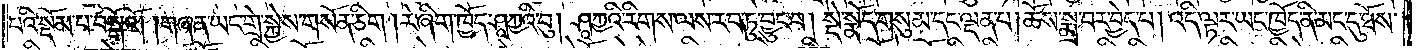པའི་སྡོམ་པ་བསྒོའོ། །གཞན་ཡང་གྲེ་སྐྱེས་གསོན་ཅིག །རེ་ཞིག་ཁྱོད་ཤཱཀྱའི་བུ། ཤཱཀྱའི་རིགས་ལས་རབ་ཏུ་བྱུང་བ། སྡེ་སྣོད་གསུམ་དང་ལྡན་པ། ཆོས་སྨྲ་བར་བྱེད་པ། འདི་ལྟར་ཡང་ཁྱོད་ནི་མང་དུ་ཐོས་
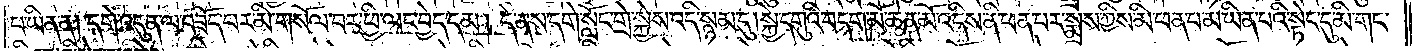པ་ཡིན་ན། དགེ་འདུན་ལ་བཟོད་པར་མི་གསོལ་བར་ཕྱི་ལང་བྱེད་དམ། དེ་ནས་དགེ་སློང་གྲེ་སྐྱེས་འདི་སྙམ་དུ། སྐྱེ་དགུའི་བདག་མོ་ཆེན་མོ་འདིས་ནི་ཕན་པར་སྨྲས་ཀྱིས་མི་ཕན་པ་མ་ཡིན་པའི་སྟེང་དུ་མི་གང་
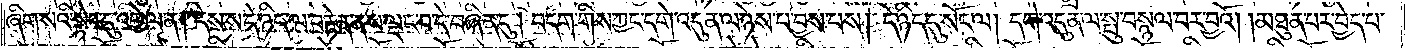ཞིག་སའི་སྟེང་དུ་འགྱེལ་ན། དེས་ས་དེ་ཉིད་ལ་བརྟེན་ནས་ལྡང་བ་དེ་བཞིན་དུ། བདག་གིས་ཀྱང་དགེ་འདུན་ལ་ཉེས་པ་བྱས་པས། དེ་ཉིད་དུ་སོང་ལ། དགེ་འདུན་ལ་སྤུ་བསྙལ་བར་བྱའོ། །མཐུན་པར་བྱེད་པ་
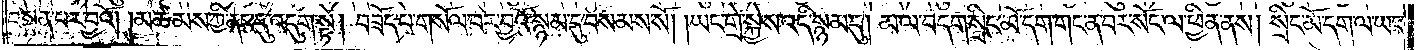བསྟན་པར་བྱའོ། །མཚམས་ཀྱི་ནང་དུ་འདུག་སྟེ། བཟོད་པ་གསོལ་བར་བྱའོ་སྙམ་དུ་བསམས་སོ། །ཡང་གྲེ་སྐྱེས་འདི་སྙམ་དུ། མ་ལ་བདག་སྲིང་མོ་དག་གང་ན་བར་སོང་ལ་ཕྱིན་ནས། སྲིང་མོ་དག་ལ་ཡང་
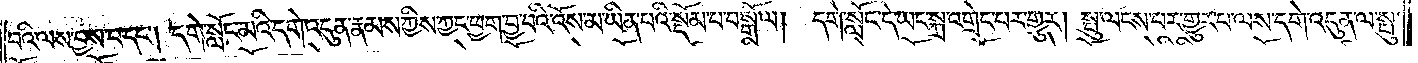བའི་ལས་བྱས་པ་དང༌། དགེ་སློང་མའི་དགེ་འདུན་རྣམས་ཀྱིས་ཀྱང་ཕྱག་བྱ་བའི་འོས་མ་ཡིན་པའི་སྡོམ་པ་བསྒོ་ལ། དགེ་སློང་དེ་ཡང་སྐྲ་འགྲེང་བར་གྱུར། སྤུ་ལངས་པར་གྱུར་པ་ལས་དགེ་འདུན་ལ་སྤུ་
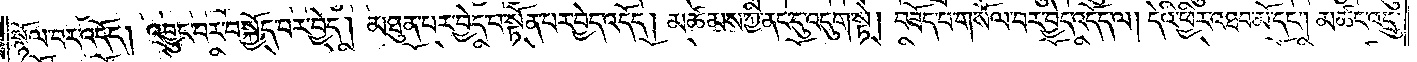སྙོལ་བར་འདོད། འབྱུང་བར་བསྐྱོད་པར་བྱེད། མཐུན་པར་བྱེད་པ་སྟོན་པར་བྱེད་འདོད། མཚམས་ཀྱི་ནང་དུ་འདུག་སྟེ། བཟོད་པ་གསོལ་བར་བྱེད་འདོད་ལ། དེའི་ཕྱིར་འཐབ་མོ་དང༌། མཚང་འདྲུ་
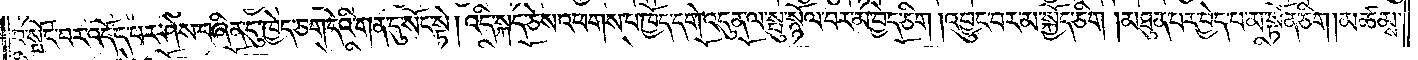བ་སྤོང་བར་འདོད་པར་ཤེས་བཞིན་དུ་ཁྱེད་ཅག་དེའི་གན་དུ་སོང་སྟེ། འདི་སྐད་ཅེས་འཕགས་པ་ཁྱོད་དགེ་འདུན་ལ་སྤུ་སྙོལ་བར་མ་བྱེད་ཅིག །འབྱུང་བར་མ་སྐྱོད་ཅིག །མཐུན་པར་བྱེད་པ་མ་སྟོན་ཅིག །མཚམས་
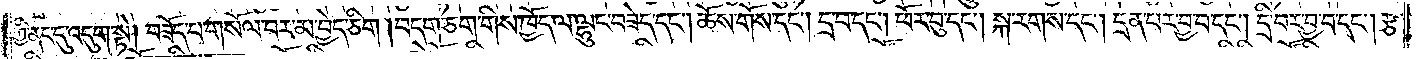ཀྱི་ནང་དུ་འདུག་སྟེ། བཟོད་པ་གསོལ་བར་མ་བྱེད་ཅིག །བདག་ཅག་གིས་ཁྱོད་ལ་ལྷུང་བཟེད་དང༌། ཆོས་གོས་དང༌། དྲ་བ་དང༌། ཕོར་བུ་དང༌། སྐ་རགས་དང༌། དྲན་པར་བྱ་བ་དང༌། དྲི་བར་བྱ་བ་དང༌། རྩ་
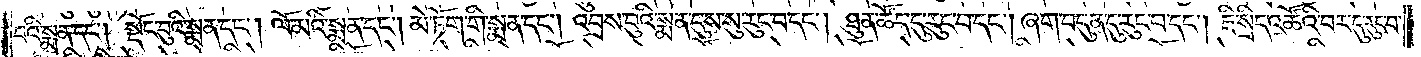བའི་སྨན་དང༌། སྡོང་བུའི་སྨན་དང༌། ལོ་མའི་སྨན་དང༌། མེ་ཏོག་གི་སྨན་དང༌། འབྲས་བུའི་སྨན་དུས་སུ་རུང་བ་དང༌། ཐུན་ཚོད་དུ་རུང་བ་དང༌། ཞག་བདུན་དུ་རུང་བ་དང༌། ཇི་སྲིད་འཚོའི་བར་དུ་རུང་བ་
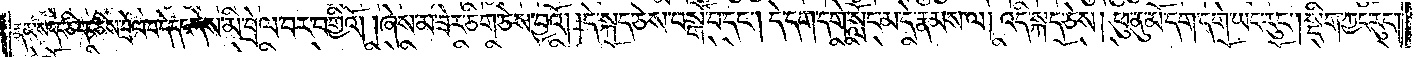རྣམས་དང་ཅི་དང་ཅིས་བྲེལ་བ་དེ་དང་དེས་མི་བྲེལ་བར་བགྱིའོ། །ཞེས་མ་ཟེར་ཅིག་ཅེས་བྱའོ། །དེ་སྐད་ཅེས་བསྒོ་བ་དང༌། དེ་དག་དགེ་སློང་མ་དེ་རྣམས་ལ། འདི་སྐད་ཅེས། ཕུ་ནུ་མོ་དག་དགེ་ཡང་རུང༌། སྡིག་ཀྱང་རུང་
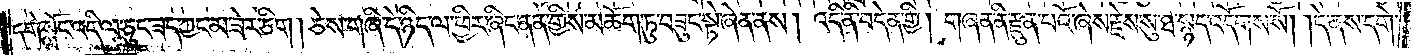དགེ་སློང་འདི་ལ་ཅུང་ཟད་ཀྱང་མ་ཟེར་ཅིག །ཅེས་གཞི་དེ་ཉིད་ལ་ཕྱིར་ཞིང་ནན་གྱིས་མཆོག་ཏུ་བཟུང་སྟེ་ཞེན་ནས། འདི་ནི་བདེན་གྱི། གཞན་ནི་རྫུན་པའོ་ཞེས་རྗེས་སུ་ཐ་སྙད་འདོགས་སོ། །དེ་ནས་དགེ་
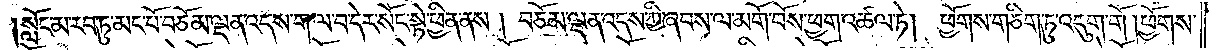སློང་མ་རབ་ཏུ་མང་པོ་བཅོམ་ལྡན་འདས་ག་ལ་བ་དེར་སོང་སྟེ་ཕྱིན་ནས། བཅོམ་ལྡན་འདས་ཀྱི་ཞབས་ལ་མགོ་བོས་ཕྱག་འཚལ་ཏེ། ཕྱོགས་གཅིག་ཏུ་འདུག་གོ། ཕྱོགས་
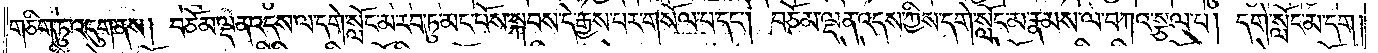གཅིག་ཏུ་འདུག་ནས། བཅོམ་ལྡན་འདས་ལ་དགེ་སློང་མ་རབ་ཏུ་མང་པོས་སྐབས་དེ་རྒྱས་པར་གསོལ་པ་དང༌། བཅོམ་ལྡན་འདས་ཀྱིས་དགེ་སློང་མ་རྣམས་ལ་བཀའ་སྩལ་པ། དགེ་སློང་མ་དག།
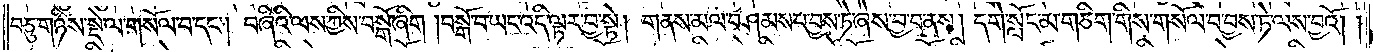བཅུ་གཉིས་སྡེ་ལ་གསོལ་བ་དང༌། བཞིའི་ལས་ཀྱིས་བསྒོ་ཞིག །བསྒོ་བ་ཡང་འདི་ལྟར་བྱ་སྟེ། གནས་མལ་བཤམས་པ་བྱས་ཏེ་ཞེས་བྱ་བ་ནས། དགེ་སློང་མ་གཅིག་གིས་གསོལ་བ་བྱས་ཏེ་ལས་བྱའོ། །
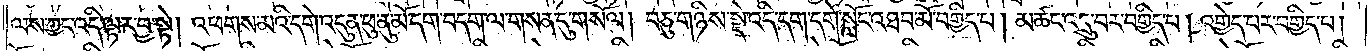ལས་ཀྱང་འདི་ལྟར་བྱ་སྟེ། འཕགས་མའི་དགེ་འདུན་ཕུ་ནུ་མོ་དག་བདག་ལ་གསན་དུ་གསོལ། བཅུ་གཉིས་སྡེ་འདི་དག་དགེ་སློང་འཐབ་མོ་བགྱིད་པ། མཚང་འདྲུ་བར་བགྱིད་པ། འགྱེད་པར་བགྱིད་པ།
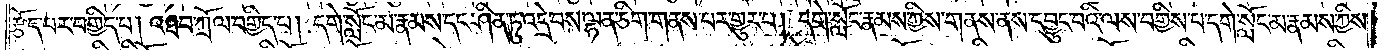རྩོད་པར་བགྱིད་པ། འཐབ་ཀྲོལ་བགྱིད་པ། དགེ་སློང་མ་རྣམས་དང་ཤིན་ཏུ་འདྲ་བས་ལྷན་ཅིག་གནས་པར་གྱུར་པ། དགེ་སློང་རྣམས་ཀྱིས་གནས་ནས་དབྱུང་བའི་ལས་བགྱིས་པ་དགེ་སློང་མ་རྣམས་ཀྱིས་
